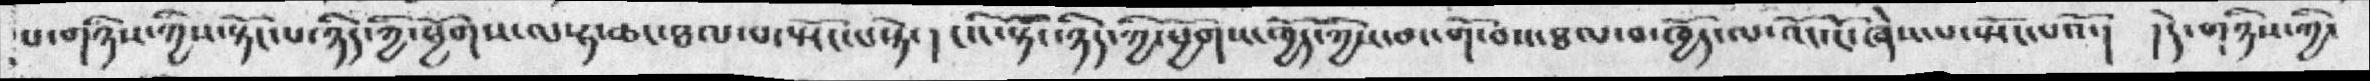པ་གཉིས་ཀྱིས་སྟོང་པ་ཉིད་ཀྱི་ཕྱོགས་ལ་ཧ་ཆང་ཐལ་བ་སྤོང་པ་སྟེ་། ངའི་སྟོང་ཉིད་ཀྱི་ཕྱོགས་ཁྱོད་ཀྱིས་མ་གོ་བས་ཐལ་བ་ཁྱོད་ལ་འོང་ངོ་ཞེས་པ་སྤོང་པའོ་། །དེ་གཉིས་ཀྱི་
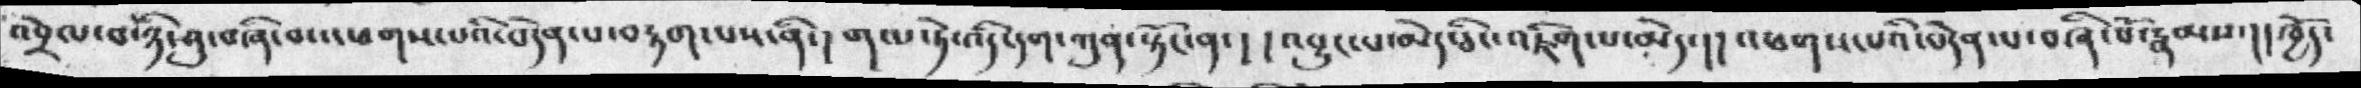འབྲེལ་བ་ཉི་ཤུ་བཞི་བ་འཕགས་པའི་བདེན་པ་བརྟག་པས་ནི་། གལ་ཏེ་འདི་དག་ཀུན་སྟོང་ན་།  །འབྱུང་པ་མེད་ཅིང་འཇིག་པ་མེད་། །འཕགས་པའི་བདེན་པ་བཞི་པོ་རྣམས་། །ཁྱོད་
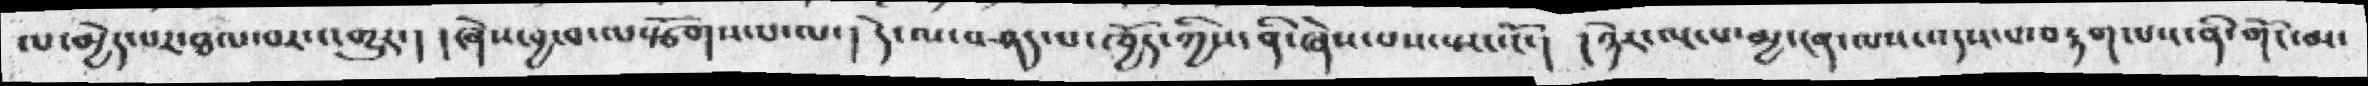ལ་མྱེད་པར་ཐལ་བར་འགྱུར་། །ཞེས་བྱ་བ་ལསྩོགས་པ་ལ་། དེ་ལ་བཤད་པ་ཁྱོད་ཀྱིས་ནི་ཞེས་པས་སྤང་ངོ་། །ཉེར་ལྔ་པ་མྱ་ངན་ལས་འདས་པ་བརྟག་པས་ནི་གོང་མ་
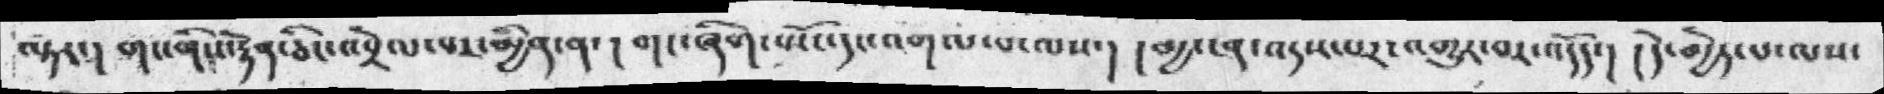ལྟར་། གང་གིས་རྟེན་ཅིང་འབྲེལ་པར་མྱིན་ན་། གང་ཞིག་སྤོང་དང་འགལ་པ་ལས་། །མྱ་ངན་འདས་པར་འགྱུར་བར་འདོད་། །དེ་མྱེད་པ་ལས་
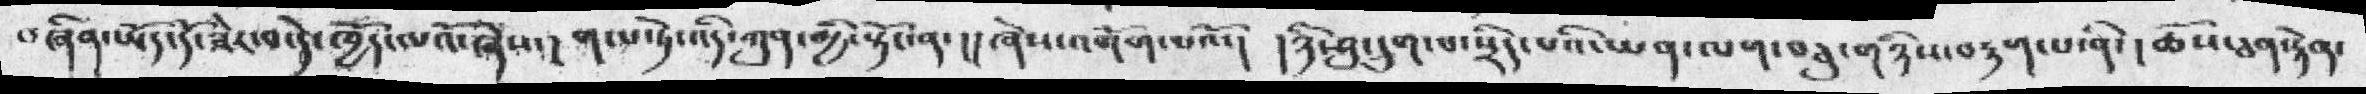བཞིན་ཡོད་དོ་ཟེར་བ་དེ་ཁྱོད་ལའོ་ཞེས་། གལ་ཏེ་འདི་ཀུན་མྱི་སྟོང་ན་། །ཞེས་འགོག་པའོ་། ཉི་ཤུ་དྲུག་པ་སྲིད་པའི་ཡན་ལག་བཅུ་གཉིས་བརྟག་པ་ནི་། ཆོས་ཅན་རྟེན་
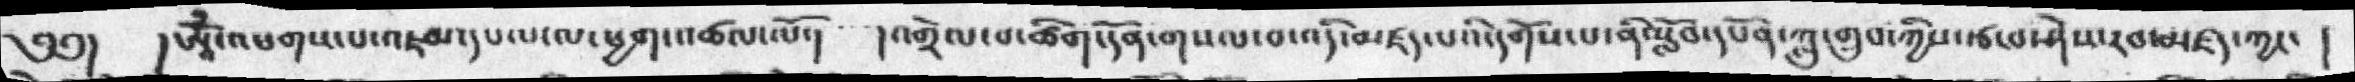༄༅། །ཨཱོཾ་འཕགས་པ་འཇམ་དཔལ་ལ་ཕྱག་འཚལ་ལོ་། །འགྲེལ་བ་ཚིག་དོན་གསལ་བ་འདི་མཛད་པའི་དགོས་པ་ནི་སློབ་དཔོན་ཀླུ་གྲུབ་ཀྱིས་རྩ་བ་ཤེས་རབ་མཛད་ཀྱང་ །
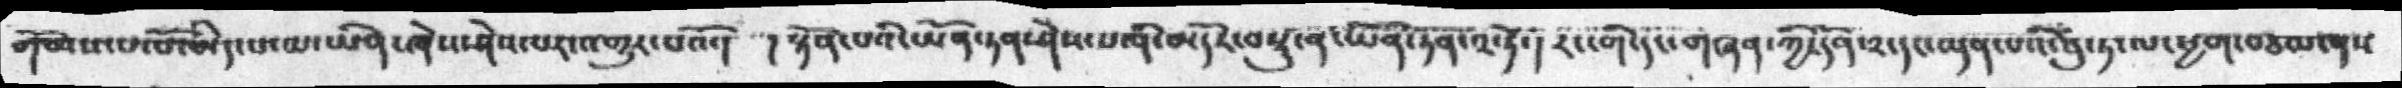གོམས་པ་པོ་མེད་པ་མ་ཡིན་ཞེས་ཤེས་པར་འགྱུར་པའོ་།  ། སྟོན་པའི་ཡོན་ཏན་ཤེས་པ་ནི་མདོར་བསྡུ་ན་ཡོན་ཏན་༢་ཏེ་། རང་གི་དང་གཞན་ཀྱི་དོན་༢་དང་ལྡན་པའི་བུ་ཏ་ལ་ཕྱག་བཅལ་ནས
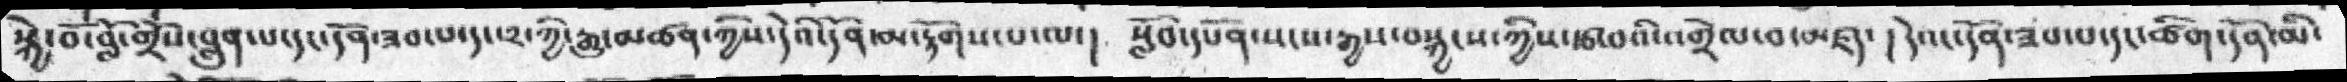སྐྱེ་བོ་བློ་གྲོས་བླུན་པ་དང་དོན་ཟབ་པ་དང་༢་ཀྱི་རྒྱུ་མཚན་ཀྱིས་དེའི་དོན་མ་རྟོགས་པ་ལ་།  སློབ་དཔོན་སངས་རྒྱས་བསྐྱངས་ཀྱི་རྩ་བའི་འགྲེལ་བ་མཛད་ ། དེའང་དོན་ཟབ་པ་དང་ཚིག་དོན་མི་
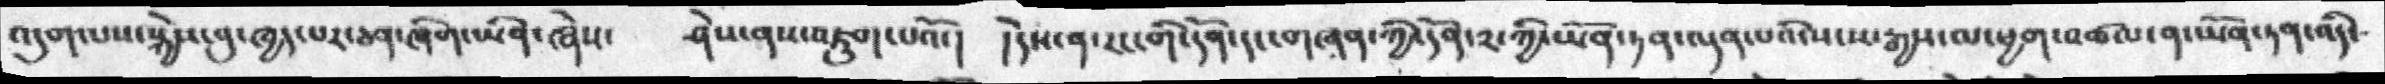འདུག་པས་སྐྱེས་བུ་ཁྱད་པར་ཅན་ཞིག་ཡིན་ཞེས་   ཤེས་ནས་འཇུག་པའོ་།  །དེས་ན་རང་གི་དོན་དང་གཞན་ཀྱི་དོན་༢་ཀྱི་ཡོན་ཏན་ལྡན་པའི་སངས་རྒྱས་ལ་ཕྱག་འཚལ་ན་ཡོན་ཏན་འདི་
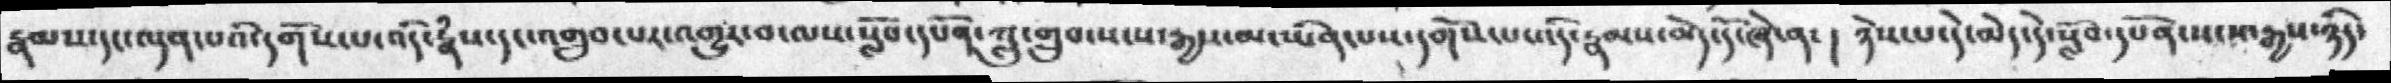རྣམས་དང་ལྡན་པའི་དགོས་པ་འདི་རྣཾས་དང་འགྲུབ་པར་འགྱུར་བ་ལས་སློབ་དཔོན་ཀླུ་གྲུབ་སངས་རྒྱས་མ་ཡིན་པས་དགོས་པ་འདི་རྣམས་མེད་དོ་ཞེ་ན་།  ཉེས་པ་དེ་མེད་དེ་སློབ་དཔོན་སངས་རྒྱས་ཉིད་
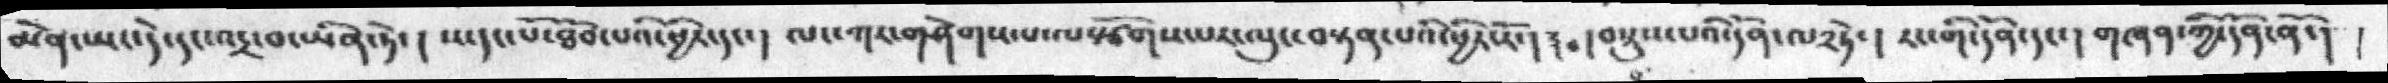མེན་ཡང་དེ་དང་འདྲ་བ་ཡིན་ཏེ་།  ས་དང་པོ་ཐོབ་པའི་ཕྱིར་དང་། ལང་ཀར་གཤེགས་པ་ལསྩོགས་པར་ལུང་བསྟན་པའི་ཕྱིར་རོ་།  །བསྟུས་པའི་དོན་ལ༢ཏེ་ ། རང་གི་དོན་དང་ ། གཞན་ཀྱི་དོན་ནོ་། །
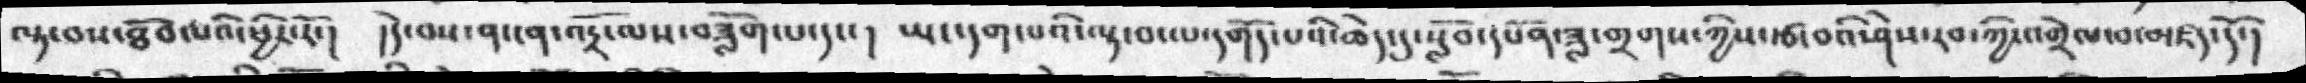ལྟ་བས་ཐོབ་པའི་ཕྱིར་རོ་།  །དེ་བས་ན་ངན་འདྲོ་ལས་བཟློག་པ་ད་ ། ཡང་དག་པའི་ལྟ་བ་ལ་དགོད་པའི་ཆེད་དུ་སློབ་དཔོན་ཟླ་གྲགས་ཀྱིས་རྩ་བའི་ཤེས་རབ་ཀྱི་འགྲེལ་བ་མཛད་དོ་།
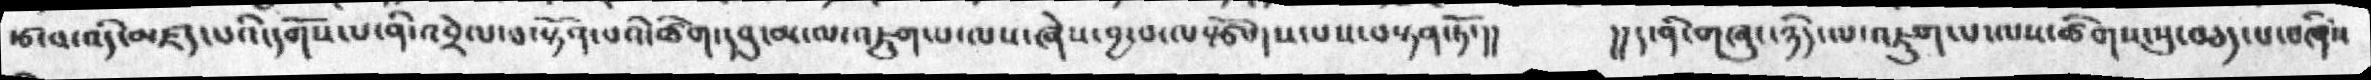རྩ་བ་འདི་མཛད་པའི་དགོས་པ་ནི་འབྲེལ་བ་སྟོན་པའི་ཚིག་དབུ་མ་ལ་འཇུག་པ་ལས་ཞེས་བྱ་བ་ལསྩོགས་པས་བསྟན་ཏོ་།།   །།ད་ནི་གཞུང་ཉིད་ལ་འཇུག་པ་ལས་ཚིགས་སུ་བཅད་པ་བཞིས
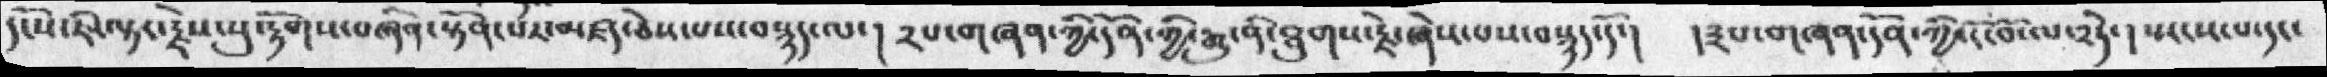དངོས་ཇི་ལྟར་རྗེས་སུ་རྟོགས་བཞིན་སྟོན་པར་མཛད་ཅེས་པས་བསྙད་ལ་། ༢པ་གཞན་ཀྱི་དོན་ཀྱི་རྒྱུ་ནི་ཐུགས་རྗེ་ཞེས་པས་བསྙད་དོ་། །༣པ་གཞན་དོན་ཀྱི་ངོ་བོ་༢ཏེ་། སྤངས་པ་དང་
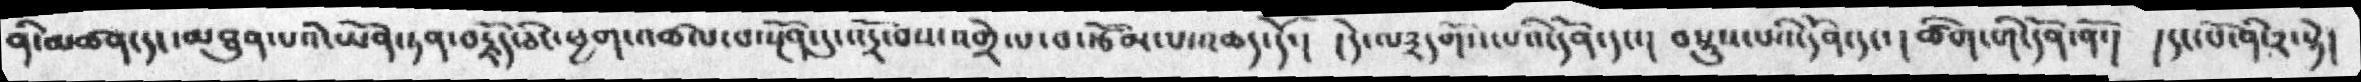ནི་མཚན་དང་མཐུན་པའི་ཡོན་ཏན་བརྗོད་ཅིང་ཕྱག་འཚལ་བ་སྔོན་དུ་འདྲོ་བས་འགྲེལ་བ་རྩོམ་པ་འཆད་དོ་།  །དེ་ལ༣དགོས་པའི་དོན་དང་།  བསྡུས་པའི་དོན་དང་། ཚིག་གི་དོན་ནོ་། །དང་པོ་ནི་༢་སྟེ།
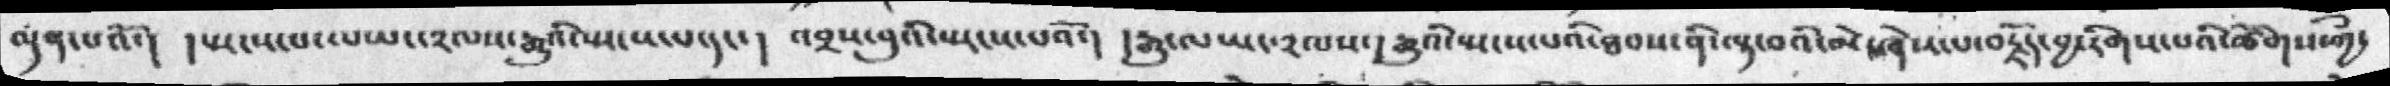ལྡན་པའོ་།  །སྤངས་པ་ལ་ཡང་༢ལས་རྒྱུའི་སྤངས་པ་དང་། འབྲས་བུའི་སྤངས་པའོ་།  །རྒྱུ་ལཡང་༢ལས་། རྒྱུའི་སྤངས་པའི་ཐབས་ནི་ལྟ་བའི་མེ་ཞེས་པ་བརྗོད་བྱ་རིགས་པའི་ཚིགས་ཀྱྀ་
